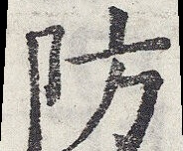防
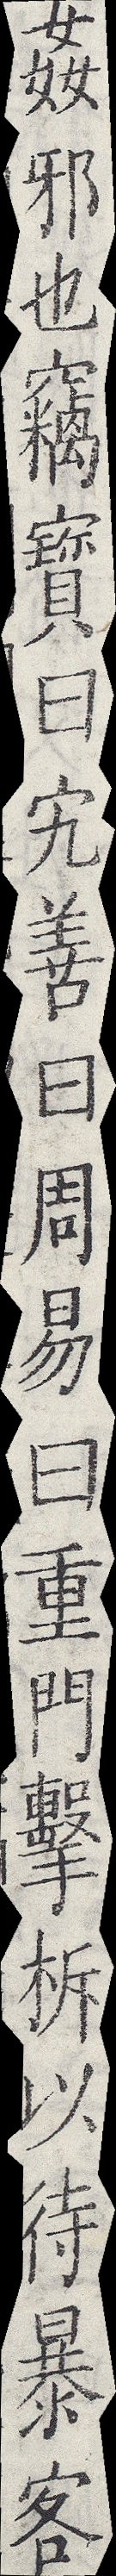姦邪也竊寶曰宄善曰周易曰重門擊柝以待暴客
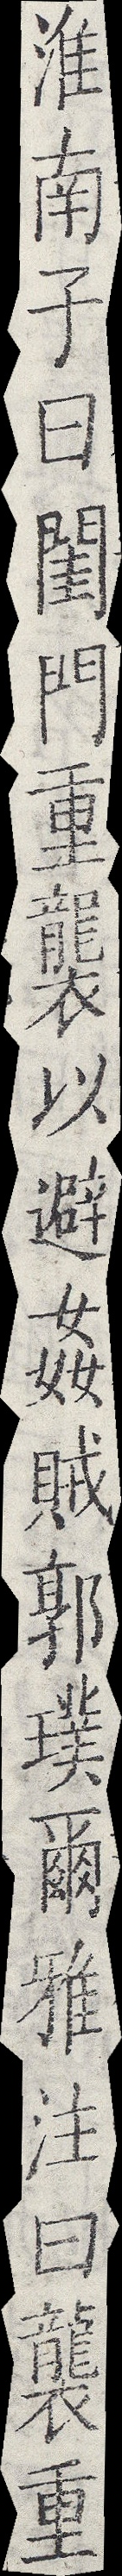淮南子曰閨門重襲以避姦賊郭璞爾雅注曰襲重
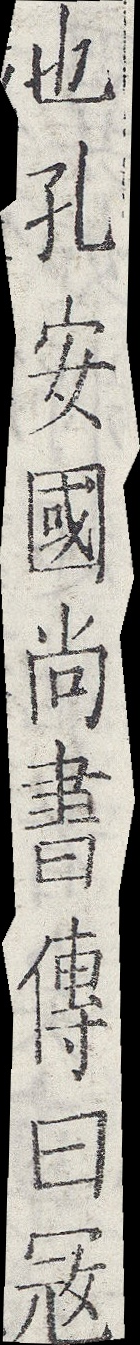也孔安國尚書傳曰寇
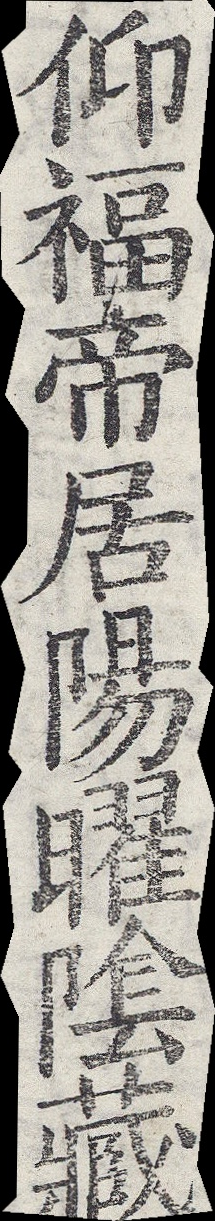仰福帝居陽曜陰藏
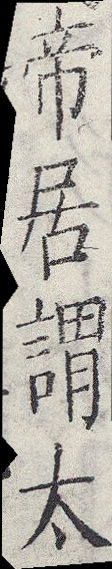帝居謂太
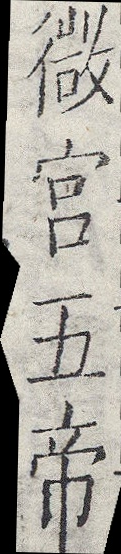微宮五帝
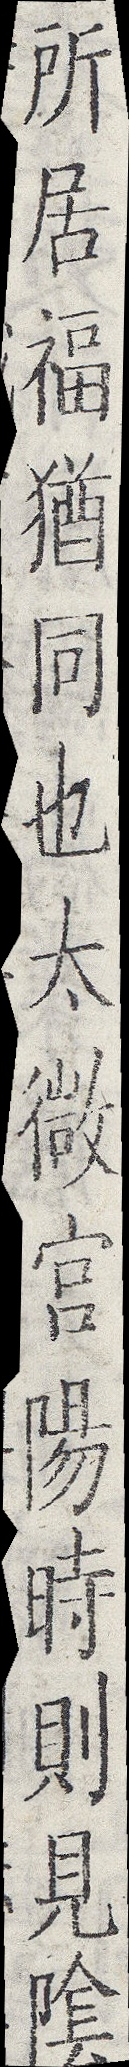所居福猶同也太微宮陽時則見陰
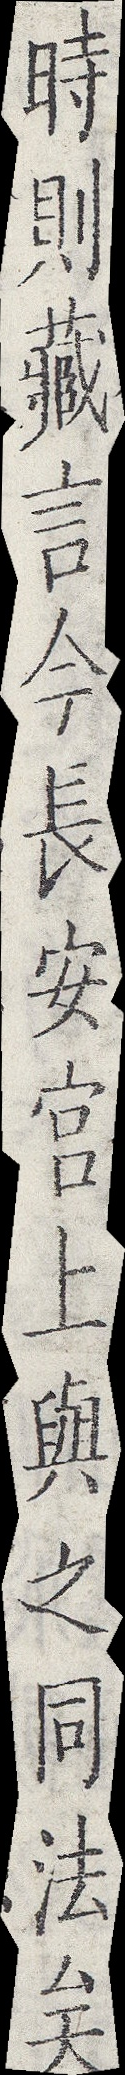時則藏言今長安宮上與之同法矣
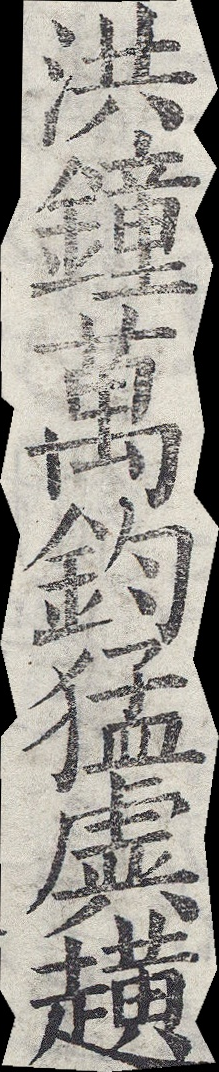洪鐘萬鈞猛虡趪
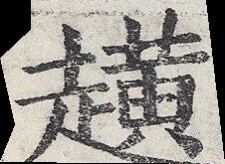趪
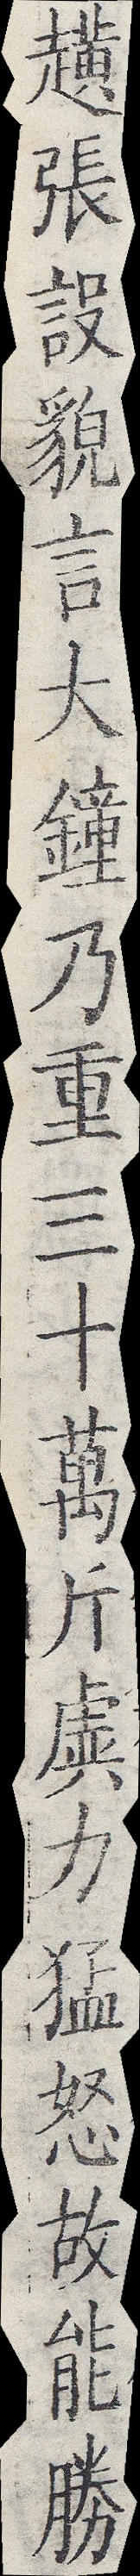趪張設貌言大鐘乃重三十萬斤虡力猛怒故能勝
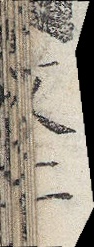文二
